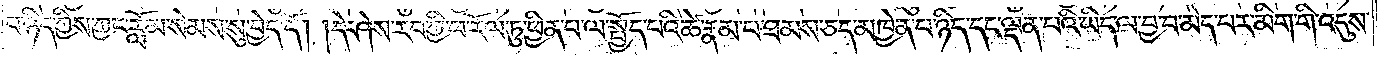པ་ཉིད་ཀྱིས་ཀྱང་རློམ་སེམས་སུ་བྱེད་དོ། །དེ་ཤེས་རབ་ཀྱི་ཕ་རོལ་ཏུ་ཕྱིན་པ་ལ་སྤྱོད་པའི་ཚེ་རྣམ་པ་ཐམས་ཅད་མཁྱེན་པ་ཉིད་དང་ལྡན་པའི་ཡིད་ལ་བྱ་བ་མེད་པར་མིག་གི་འདུས་
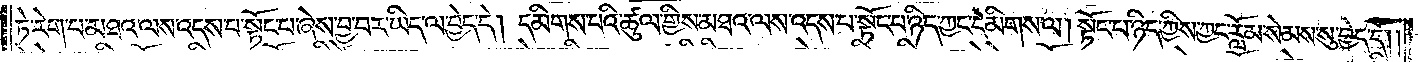ཏེ་རེག་པ་མཐའ་ལས་འདས་པ་སྟོང་པ་ཞེས་བྱ་བར་ཡིད་ལ་བྱེད་དེ། དམིགས་པའི་ཚུལ་གྱིས་མཐའ་ལས་འདས་པ་སྟོང་པ་ཉིད་ཀྱང་དམིགས་ལ། སྟོང་པ་ཉིད་ཀྱིས་ཀྱང་རློམ་སེམས་སུ་བྱེད་དོ༎
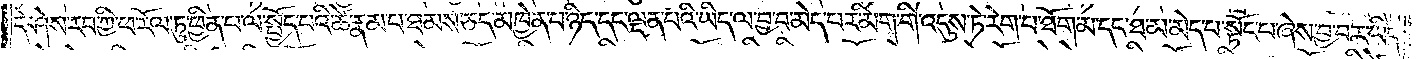དེ་ཤེས་རབ་ཀྱི་ཕ་རོལ་ཏུ་ཕྱིན་པ་ལ་སྤྱོད་པའི་ཚེ་རྣམ་པ་ཐམས་ཅད་མཁྱེན་པ་ཉིད་དང་ལྡན་པའི་ཡིད་ལ་བྱ་བ་མེད་པར་མིག་གི་འདུས་ཏེ་རེག་པ་ཐོག་མ་དང་ཐ་མ་མེད་པ་སྟོང་པ་ཞེས་བྱ་བར་ཡིད་
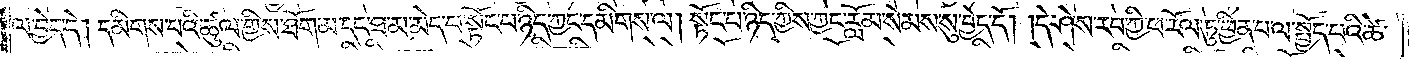ལ་བྱེད་དེ། དམིགས་པའི་ཚུལ་གྱིས་ཐོག་མ་དང་ཐ་མ་མེད་པ་སྟོང་པ་ཉིད་ཀྱང་དམིགས་ལ། སྟོང་པ་ཉིད་ཀྱིས་ཀྱང་རློམ་སེམས་སུ་བྱེད་དོ། །དེ་ཤེས་རབ་ཀྱི་ཕ་རོལ་ཏུ་ཕྱིན་པ་ལ་སྤྱོད་པའི་ཚེ་
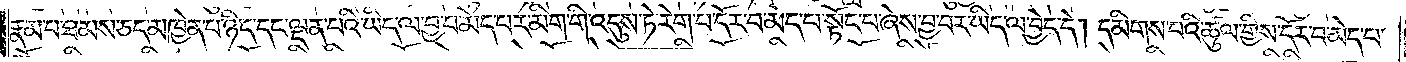རྣམ་པ་ཐམས་ཅད་མཁྱེན་པ་ཉིད་དང་ལྡན་པའི་ཡིད་ལ་བྱ་བ་མེད་པར་མིག་གི་འདུས་ཏེ་རེག་པ་དོར་བ་མེད་པ་སྟོང་པ་ཞེས་བྱ་བར་ཡིད་ལ་བྱེད་དེ། དམིགས་པའི་ཚུལ་གྱིས་དོར་བ་མེད་པ་
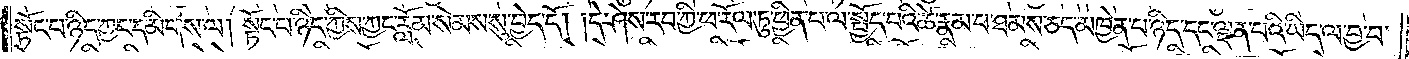སྟོང་པ་ཉིད་ཀྱང་དམིགས་ལ། སྟོང་པ་ཉིད་ཀྱིས་ཀྱང་རློམ་སེམས་སུ་བྱེད་དོ། །དེ་ཤེས་རབ་ཀྱི་ཕ་རོལ་ཏུ་ཕྱིན་པ་ལ་སྤྱོད་པའི་ཚེ་རྣམ་པ་ཐམས་ཅད་མཁྱེན་པ་ཉིད་དང་ལྡན་པའི་ཡིད་ལ་བྱ་བ་
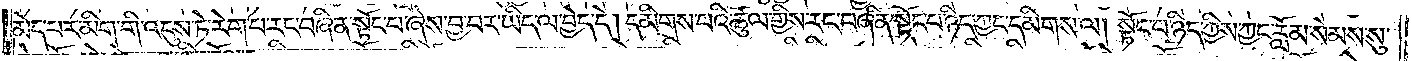མེད་པར་མིག་གི་འདུས་ཏེ་རེག་པ་རང་བཞིན་སྟོང་པ་ཞེས་བྱ་བར་ཡིད་ལ་བྱེད་དེ། དམིགས་པའི་ཚུལ་གྱིས་རང་བཞིན་སྟོང་པ་ཉིད་ཀྱང་དམིགས་ལ། སྟོང་པ་ཉིད་ཀྱིས་ཀྱང་རློམ་སེམས་སུ་
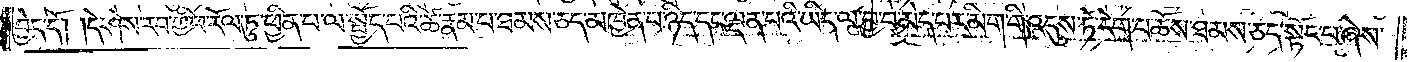བྱེད་དོ། །དེ་ཤེས་རབ་ཀྱི་ཕ་རོལ་ཏུ་ཕྱིན་པ་ལ་སྤྱོད་པའི་ཚེ་རྣམ་པ་ཐམས་ཅད་མཁྱེན་པ་ཉིད་དང་ལྡན་པའི་ཡིད་ལ་བྱ་བ་མེད་པར་མིག་གི་འདུས་ཏེ་རེག་པ་ཆོས་ཐམས་ཅད་སྟོང་པ་ཞེས་
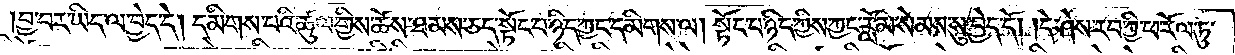བྱ་བར་ཡིད་ལ་བྱེད་དེ། དམིགས་པའི་ཚུལ་གྱིས་ཆོས་ཐམས་ཅད་སྟོང་པ་ཉིད་ཀྱང་དམིགས་ལ། སྟོང་པ་ཉིད་ཀྱིས་ཀྱང་རློམ་སེམས་སུ་བྱེད་དོ། །དེ་ཤེས་རབ་ཀྱི་ཕ་རོལ་ཏུ་
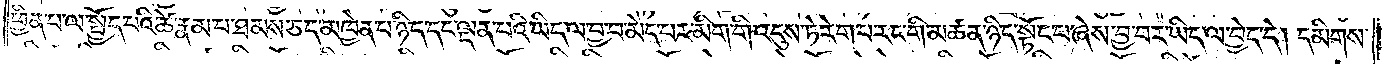ཕྱིན་པ་ལ་སྤྱོད་པའི་ཚེ་རྣམ་པ་ཐམས་ཅད་མཁྱེན་པ་ཉིད་དང་ལྡན་པའི་ཡིད་ལ་བྱ་བ་མེད་པར་མིག་གི་འདུས་ཏེ་རེག་པ་རང་གི་མཚན་ཉིད་སྟོང་པ་ཞེས་བྱ་བར་ཡིད་ལ་བྱེད་དེ། དམིགས་
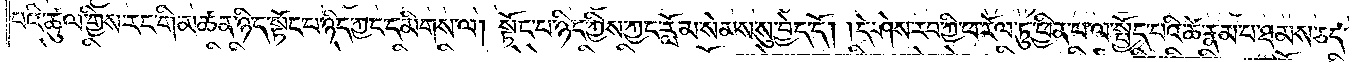པའི་ཚུལ་གྱིས་རང་གི་མཚན་ཉིད་སྟོང་པ་ཉིད་ཀྱང་དམིགས་ལ། སྟོང་པ་ཉིད་ཀྱིས་ཀྱང་རློམ་སེམས་སུ་བྱེད་དོ། །དེ་ཤེས་རབ་ཀྱི་ཕ་རོལ་ཏུ་ཕྱིན་པ་ལ་སྤྱོད་པའི་ཚེ་རྣམ་པ་ཐམས་ཅད་
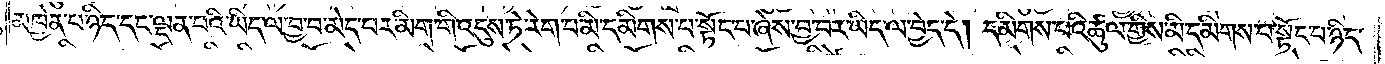མཁྱེན་པ་ཉིད་དང་ལྡན་པའི་ཡིད་ལ་བྱ་བ་མེད་པར་མིག་གི་འདུས་ཏེ་རེག་པ་མི་དམིགས་པ་སྟོང་པ་ཞེས་བྱ་བར་ཡིད་ལ་བྱེད་དེ། དམིགས་པའི་ཚུལ་གྱིས་མི་དམིགས་པ་སྟོང་པ་ཉིད་
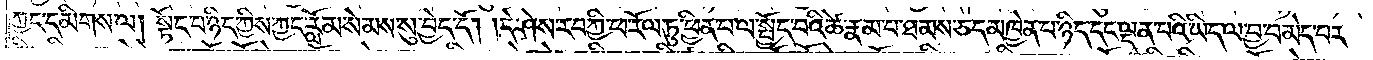ཀྱང་དམིགས་ལ། སྟོང་པ་ཉིད་ཀྱིས་ཀྱང་རློམ་སེམས་སུ་བྱེད་དོ། །དེ་ཤེས་རབ་ཀྱི་ཕ་རོལ་ཏུ་ཕྱིན་པ་ལ་སྤྱོད་པའི་ཚེ་རྣམ་པ་ཐམས་ཅད་མཁྱེན་པ་ཉིད་དང་ལྡན་པའི་ཡིད་ལ་བྱ་བ་མེད་པར་
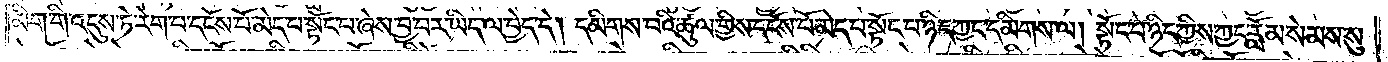མིག་གི་འདུས་ཏེ་རེག་པ་དངོས་པོ་མེད་པ་སྟོང་པ་ཞེས་བྱ་བར་ཡིད་ལ་བྱེད་དེ། དམིགས་པའི་ཚུལ་གྱིས་དངོས་པོ་མེད་པ་སྟོང་པ་ཉིད་ཀྱང་དམིགས་ལ། སྟོང་པ་ཉིད་ཀྱིས་ཀྱང་རློམ་སེམས་སུ་
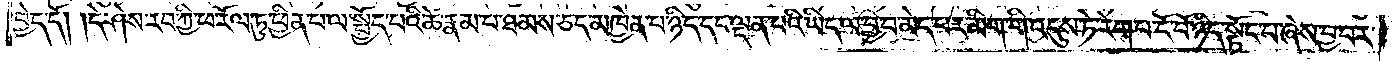བྱེད་དོ། །དེ་ཤེས་རབ་ཀྱི་ཕ་རོལ་ཏུ་ཕྱིན་པ་ལ་སྤྱོད་པའི་ཚེ་རྣམ་པ་ཐམས་ཅད་མཁྱེན་པ་ཉིད་དང་ལྡན་པའི་ཡིད་ལ་བྱ་བ་མེད་པར་མིག་གི་འདུས་ཏེ་རེག་པ་ངོ་བོ་ཉིད་སྟོང་པ་ཞེས་བྱ་བར་
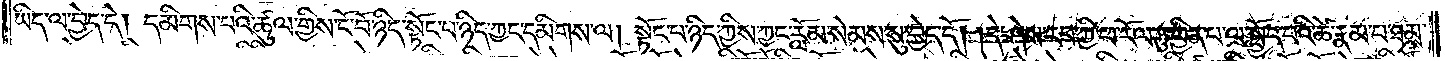ཡིད་ལ་བྱེད་དེ། དམིགས་པའི་ཚུལ་གྱིས་ངོ་བོ་ཉིད་སྟོང་པ་ཉིད་ཀྱང་དམིགས་ལ། སྟོང་པ་ཉིད་ཀྱིས་ཀྱང་རློམ་སེམས་སུ་བྱེད་དོ། །དེ་ཤེས་རབ་ཀྱི་ཕ་རོལ་ཏུ་ཕྱིན་པ་ལ་སྤྱོད་པའི་ཚེ་རྣམ་པ་ཐམས་
